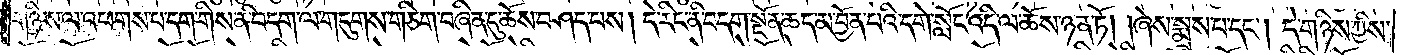གཉིས་ལ་འཕགས་པ་དག་གིས་ནི་བདག་ལ་གདུགས་གཅིག་བཞིན་དུ་ཆོས་བཤད་པས། དེ་རིང་ནི་བདག་སྔོན་ཆད་མ་བྱོན་པའི་དགེ་སློང་འདི་ལ་ཆོས་ཉན་ཏོ། །ཞེས་སྨྲས་པ་དང༌། དེ་གཉིས་ཀྱིས་
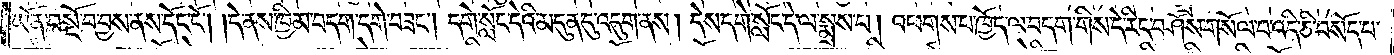ཡོན་བསྔོ་བ་བྱས་ནས་དོང་ངོ༌། །དེ་ནས་ཁྱིམ་བདག་དགེ་བཟང༌། དགེ་སློང་དེའི་མདུན་དུ་འདུག་ནས། དེས་དགེ་སློང་དེ་ལ་སྨྲས་པ། འཕགས་པ་ཁྱོད་ལ་བདག་གིས་དེ་རིང་བཤོས་གསོལ་བ་འདི་ཅི་བསོད་པ་
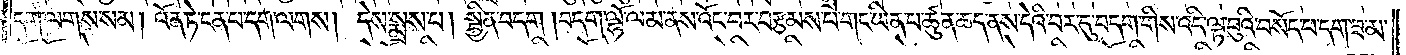དག་ལགས་སམ། འོན་ཏེ་ངན་པ་དག་ལགས། དེས་སྨྲས་པ། སྦྱིན་བདག །བདག་ལྷོ་ལམ་ནས་འོང་བར་བརྩམས་པ་གང་ཡིན་པ་ཚུན་ཆད་ནས་དེའི་བར་དུ་བདག་གིས་འདི་ལྟ་བུའི་བསོད་པ་དག་ཟ་མ་
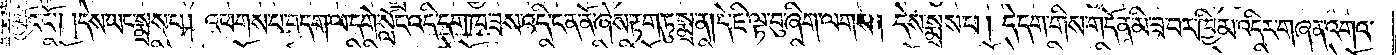མྱོང་ངོ༌། །དེས་ཡང་སྨྲས་པ། འཕགས་པ་བདག་ལ་དགེ་སློང་འདི་དག་ཁ་ཟས་འདི་ངན་ནོ་ཞེས་རྟག་ཏུ་སྨྲ་ན། དེ་ཇི་ལྟ་བུ་ཞིག་ལགས། དེས་སྨྲས་པ། དེ་དག་གིས་གདོན་མི་ཟ་བར་ཁྱིམ་འདིར་གཞན་འགའ་
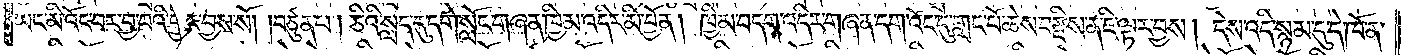ཡང་མི་འོང་བར་བྱ་བའི་ཕྱིར་བྱས་སོ། །བཙུན་པ། ཅིའི་སླད་དུ་དགེ་སློང་གཞན་ཁྱིམ་འདིར་མི་བྱོན། ཁྱིམ་བདག་འདིར་གཞན་དག་འོང་དུ་གླང་པོ་ཆེས་བརྫིས་ན་ཇི་ལྟར་བྱས། དེས་འདི་སྙམ་དུ་དེ་ཁོ་ན་
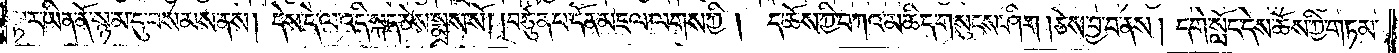ལྟར་ཡིན་ནོ་སྙམ་དུ་བསམས་ནས། དེས་དེ་ལ་འདི་སྐད་ཅེས་སྨྲས་སོ། །བཙུན་པ་དོན་མཇལ་ལགས་ཀྱི། ད་ཆོས་ཀྱི་བཀའ་མཆིད་གསུངས་ཤིག །ཅེས་བྱ་བ་ནས། དགེ་སློང་དེས་ཆོས་ཀྱི་གཏམ་
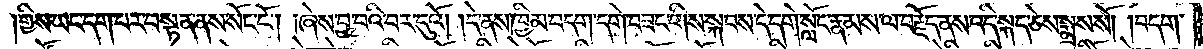གྱིས་ཡང་དག་པར་བསྟན་ནས་སོང་ངོ༌། །ཞེས་བྱ་བའི་བར་དུའོ། །དེ་ནས་ཁྱིམ་བདག་དགེ་བཟང་གིས་སྐབས་དེ་དགེ་སློང་རྣམས་ལ་བརྗོད་ནས་འདི་སྐད་ཅེས་སྨྲས་སོ། །བདག་
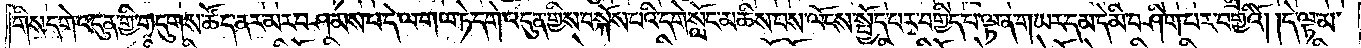གིས་དགེ་འདུན་གྱི་གདུགས་ཚོད་ནར་མར་བཤམས་པ་དེ་ལ་གལ་ཏེ་དགེ་འདུན་གྱིས་བསྐོས་པའི་དགེ་སློང་མཆིས་པས་ལོངས་སྤྱོད་པར་བགྱིད་པ་ལྟ་ན་གཡར་དམ་དེ་མི་བཤིག་པར་བགྱིའོ། །དེ་ལྟ་མ་
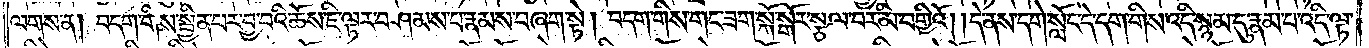ལགས་ན། བདག་གིས་སྦྱིན་པར་བྱ་བའི་ཆོས་ཇི་ལྟར་བཤམས་པ་རྣམས་བཞག་སྟེ། བདག་གིས་གང་ཟག་སྐོ་སྒོར་སྩལ་བར་མི་བགྱིའོ། །དེ་ནས་དགེ་སློང་དེ་དག་གིས་འདི་སྙམ་དུ་རྣམ་པ་འདི་ལྟ་
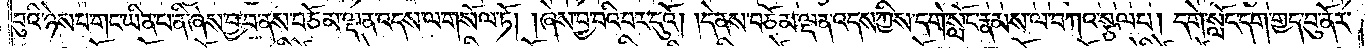བུའི་ཉེས་པ་གང་ཡིན་པ་ནི་ཞེས་བྱ་བ་ནས་བཅོམ་ལྡན་འདས་ལ་གསོལ་ཏོ། །ཞེས་བྱ་བའི་བར་དུའོ། །དེ་ནས་བཅོམ་ལྡན་འདས་ཀྱིས་དགེ་སློང་རྣམས་ལ་བཀའ་སྩལ་པ། དགེ་སློང་དག་གྱད་བུ་ནོར་
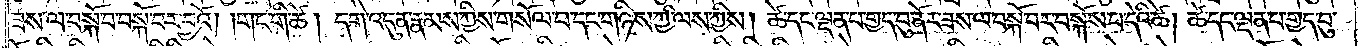ཟས་ལ་བསྐོ་བ་བསྐོ་བར་བྱའོ། །གང་གི་ཚེ། དགེ་འདུན་རྣམས་ཀྱིས་གསོལ་བ་དང་གཉིས་ཀྱི་ལས་ཀྱིས། ཚེ་དང་ལྡན་པ་གྱད་བུ་ནོར་ཟས་ལ་བསྐོ་བར་བསྐོས་པ་དེའི་ཚེ། ཚེ་དང་ལྡན་པ་གྱད་བུ་
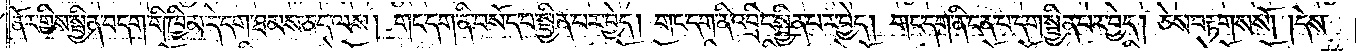ནོར་གྱིས་སྦྱིན་བདག་གི་ཁྱིམ་དེ་དག་ཐམས་ཅད་ལས། གང་དག་ནི་བསོད་པ་སྦྱིན་པར་བྱེད། གང་དག་ནི་འབྲིང་སྦྱིན་པར་བྱེད། གང་དག་ནི་ངན་པ་དག་སྦྱིན་པར་བྱེད། ཅེས་བརྟགས་སོ། །དེས་
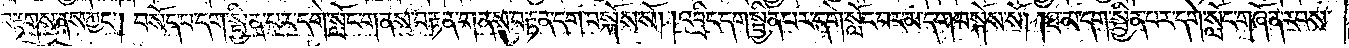བརྟགས་ནས་ཀྱང༌། བསོད་པ་དག་སྦྱིན་པར་དགེ་སློང་གནས་བརྟན་གནས་བརྟན་དག་བསྐོས་སོ། །འབྲིང་དག་སྦྱིན་པར་དགེ་སློང་བར་མ་དག་བསྐོས་སོ། །ཐ་མ་དག་སྦྱིན་པར་དགེ་སློང་གཞོན་རབས་
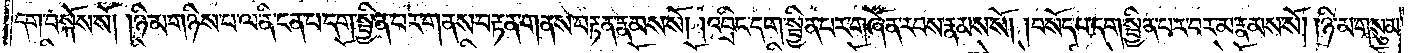དག་བསྐོས་སོ། །ཉི་མ་གཉིས་པ་ལ་ནི་ངན་པ་དག་སྦྱིན་པར་གནས་བརྟན་གནས་བརྟན་རྣམས་སོ། །འབྲིང་དག་སྦྱིན་པར་གཞོན་རབས་རྣམས་སོ། །བསོད་པ་དག་སྦྱིན་པར་བར་མ་རྣམས་སོ། །ཉི་མ་གསུམ་
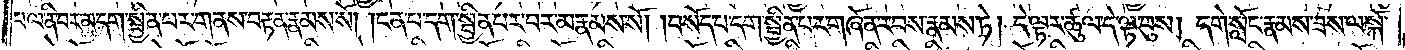པ་ལ་ནི་བར་མ་དག་སྦྱིན་པར་གནས་བརྟན་རྣམས་སོ། །ངན་པ་དག་སྦྱིན་པར་བར་མ་རྣམས་སོ། །བསོད་པ་དག་སྦྱིན་པར་གཞོན་རབས་རྣམས་ཏེ། དེ་ལྟར་ཚུལ་དེ་ལྟ་བུས། དགེ་སློང་རྣམས་ཟས་ལ་སྐོ་
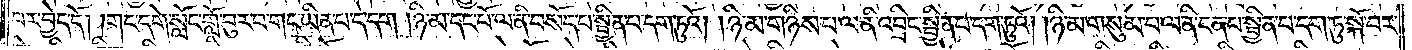བར་བྱེད་དོ། །གང་དགེ་སློང་གློ་བུར་བ་གང་ཡིན་པ་དེ་དག །ཉི་མ་དང་པོ་ལ་ནི་བསོད་པ་སྦྱིན་པ་དག་ཏུའོ། །ཉི་མ་གཉིས་པ་ལ་ནི་འབྲིང་སྦྱིན་པ་དག་ཏུའོ། །ཉི་མ་གསུམ་པ་ལ་ནི་ངན་པ་སྦྱིན་པ་དག་ཏུ་སྐོ་བར་
